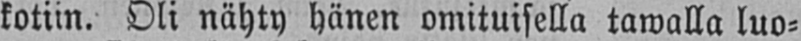kotiin. Oli nähty hänen omituisella tawalla luo-
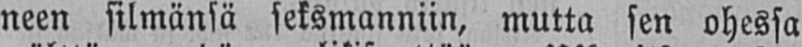neen silmänsä seksmanniin, mutta sen ohessa
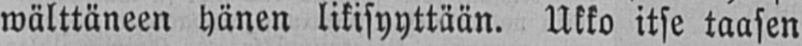wälttäneen hänen likisyyttään. Ukko itse taasen
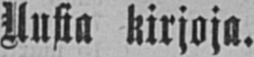Uusia kirjoja.
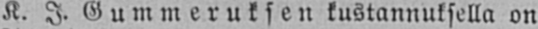K. J. Gummeruksen kustannuksella on
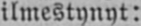ilmestynyt:
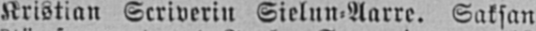Kristian Scriverin Sielun-Aarre. Saksan
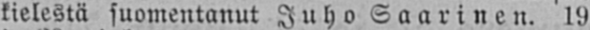kielestä suomentanut Juho Saarinen. 19
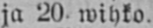ja 20 wihko.
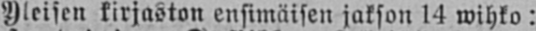Yleisen kirjaston ensimäisen jakson 14 wihko:
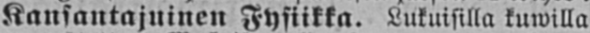Kansantajuinen Fysiikka. Lukuisilla kuwilla
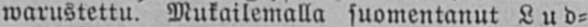warustettu. Mukailemalla suomentanut Lud-
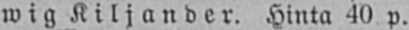wig Kiljander. Hinta 40 p.
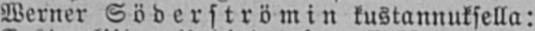Werner Söderströmin kustannuksella:
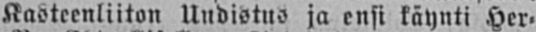Kasteenliiton Uudistus ja ensi käynti Her-
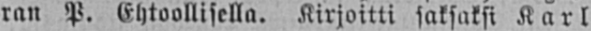ran P. Ehtoollisella. Kirjoitti saksaksi Karl
